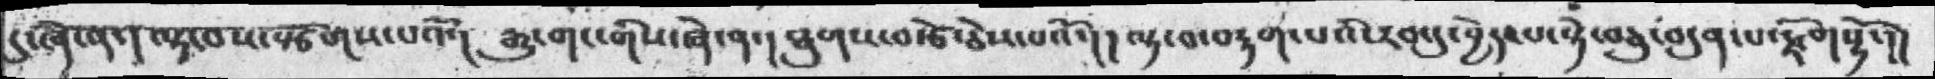དུ་ཞེ་ན་། ལྟ་བས་སྩོགས་པའོ་། རྒྱུ་གང་ཞེ་ན་། ཐུགས་བརྩེ་ཅེས་པའོ་། །ལྟ་བ་བརྟག་པའི་རབ་དུ་བྱེད་པ་སྟེ་བཅུ་བདུན་པ་རྫོགསྷོ་།།
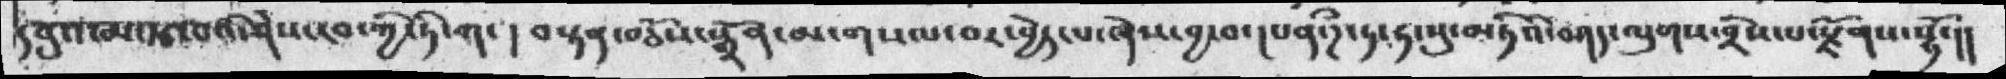དབུའ་མ་རྩ་བའི་ཤེས་རབ་ཀྱི་ཏི་ཀ་། བསྟན་བཅོས་སྒྲོན་མ་གསལ་བར་བྱེད་པ་ཞེས་བྱ་བ་།པན་ཌྀདཏ་ཧ་སུ་མཏིའི་བཤད་ལུགས་བྲིས་པ་རྫོགས་སྷོ་།།
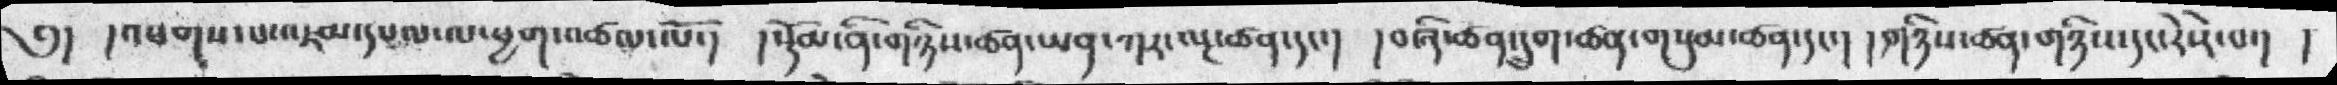༅།  །འཕགས་པ་འཇམ་དཔལ་ལ་ཕྱག་འཚལ་ལོ་།  ། སྡོམ་ནི་གཉིས་ཚན་ཡན་ཀར་ལྔ་ཚན་དང་།  ། བཞི་ཚན་དྲུག་ཚན་གསུམ་ཚན་དང་།  ། གཉིས་ཚན་གཉིས་དང་རེ་རེ་པ་། །
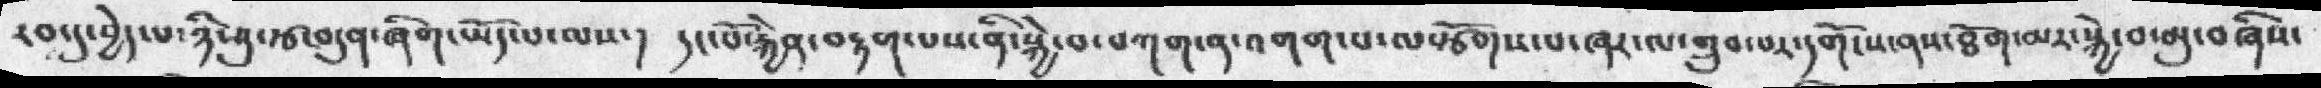རབ་དུ་བྱེད་པ་ཉི་ཤུ་རྩ་བདུན་ཞིག་ཡོད་པ་ལས་། དང་པོ་རྐྱེན་བརྟག་པས་ནི་སྐྱེ་བ་བཀག་ན་འགག་པ་ལསྩོགས་པ་ཞར་ལ་གྲུབ་པར་དགོངས་ནས་ཐོག་མར་སྐྱེ་བ་མུ་བཞིས་
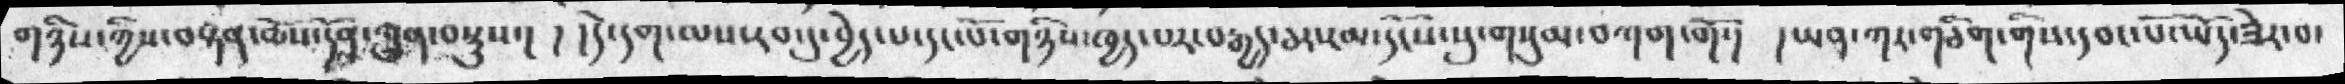གཉིས་ཀྱིས་བསྟན་ཆོས་དོན་ཀུན་བསྡུས་།  ། །དེ་དག་ལས་རབ་དུ་བྱེད་པ་དང་པོ་གཉིས་ཁྱད་པར་བརྒྱད་ཅར་རམ་དངོས་སུ་གསུམ་བཀག་གོ་།  །ཡན་ཀར་གཅིག་གིས་དབང་པོ་ཡོད་ཟེར་བ་
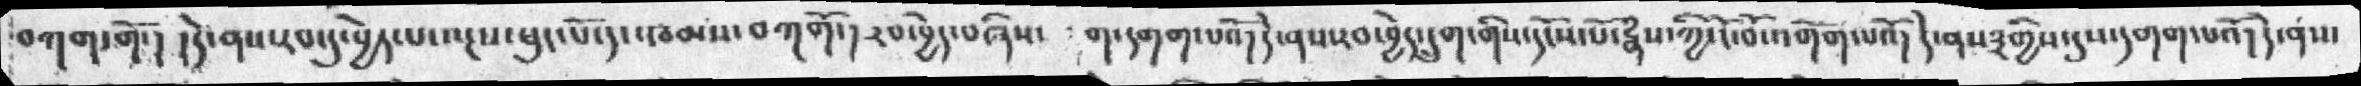བཀག་གོ་། །དེ་ནས་རབ་དུ་བྱེད་པ་ལྔས་ཕུང་པོ་དང་ཁམས་བཀགོ་། རབ་བྱེད་བཞིས་  ག་དགག་པའོ་། དེ་ནས་རབ་བྱེད་དྲུག་གིས་དངོས་པོ་རྣཾས་ཀྱི་ངོ་བོ་འགོག་པའོ། དེ་ནས༣གྱིས་དུས་དགག་པའོ་།དེ་ནས་
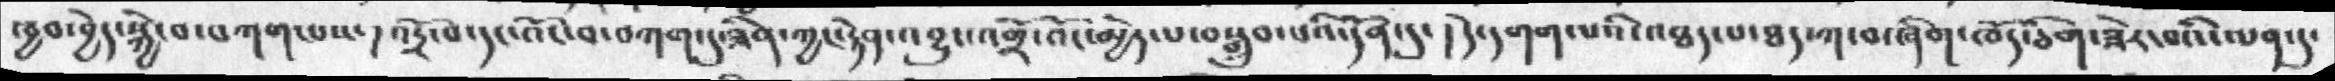ཁྱབ་བྱེད་སྐྱེ་བ་བཀག་པས་། འདྲོ་བ་དང་འོང་བ་བཀག་དུ་ཟིན་ཀྱང་རྟེན་འབྱུང་འགྲོ་འོང་མྱེད་པ་བསྒྲུབ་པའི་དོན་དུ་། དེ་དགག་པའི་འཐད་པ་ཐད་ཀ་བ་ཞིག་ཁོད་ཅིག་ཟེར་བའི་ལན་དུ་
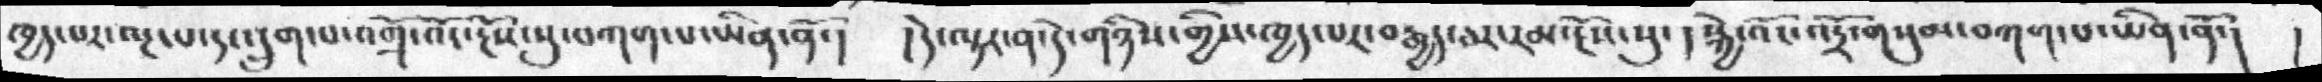ཁྱད་པར་ལྔ་པ་དང་དྲུག་པ་འགྲོ་འོང་རྔོས་སུ་བཀག་པ་ཡིན་ནོ་།  །དེ་ལྟར་ན་དེ་གཉིས་གྱིས་ཁྱད་པར་བརྒྱད་ཅར་རམ་རྔོས་སུ་། སྐྱེ་འོང་འདྲོ་གསུམ་བཀག་པ་ཡིན་ནོ་། །
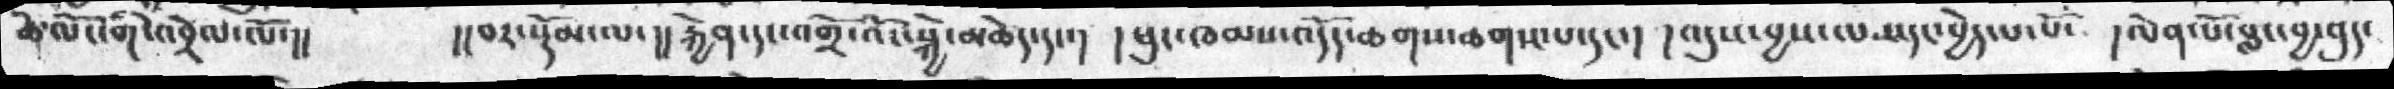ཚེ་ལོང་གི་འབྲེལ་ལོ་།།     །།བར་སྡོམ་ལ་།།རྐྱེན་དང་འགྲོ་འོང་སྐྱེ་མཆེད་དང་།  །ཕུང་ཁམས་འདོད་ཆགས་པ་དང་། །འདུས་བྱས་ལས་དང་བྱེད་པ་པོ་  །ལེན་པོ་བླང་བྱ་བུད་
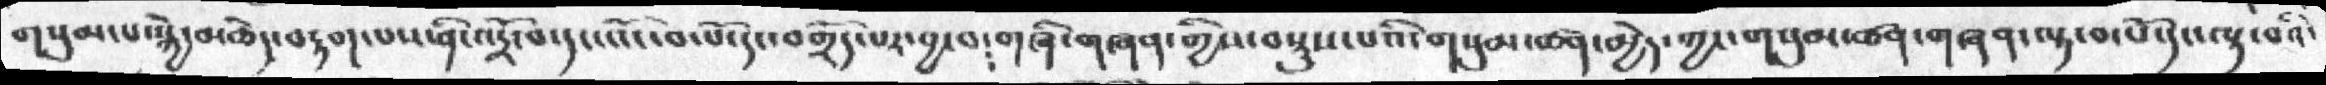གསུམ་པ་སྐྱེ་མཆེད་བརྟག་པས་ནི་འདྲོ་བ་དང་འོང་བ་པོ་དང་བགྲོད་པར་བྱ་བ་གཞི་གཞན་གྱིས་བསྡུས་པའི་གསུམ་ཚན་མྱེད་ཀྱང་གསུམ་ཚན་གཞན་ལྟ་བ་པོ་དང་ལྟ་བའི་
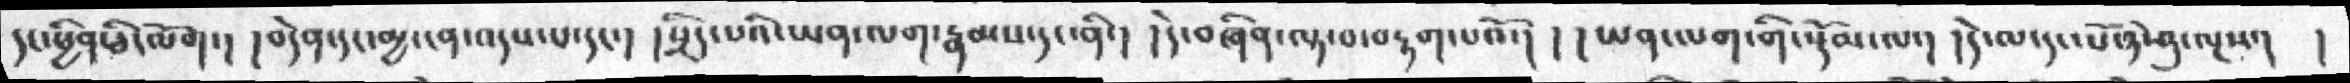དང་ཕྱིན་ཅི་ལོག་།  །བདེན་དང་མྱ་ངན་འདས་པ་དང་།  སྲིད་པའི་ཡན་ལག་རྣམས་དང་ནི་།  །དེ་བཞིན་ལྟ་བ་བརྟག་པའོ་།  ། ཡན་ལག་གི་སྡོམ་ལ་།  །དེ་ལ་དང་པོ་ཉི་ཤུ་ལྔས་།  །
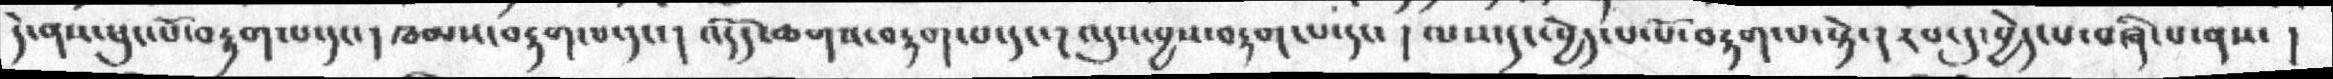དེ་ནས་ཕུང་པོ་བརྟག་པ་དང་།  ཁམས་བརྟག་པ་དང་།  འདོད་ཆགས་བརྟག་པ་དང་། འདུས་བྱས་བརྟག་པ་དང་ ། ལས་དང་བྱེད་པ་པོ་བརྟག་པ་སྟེ་། རབ་དུ་བྱེད་པ་བཞི་པ་ནས་ །
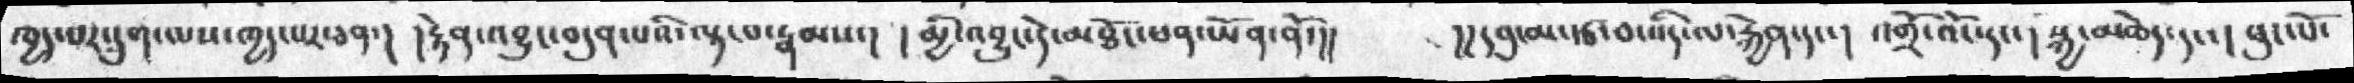ཁྱད་པར་དྲུག་ལས་ཁྱད་པར་ཅན་། །རྟེན་འབྱུང་བདུན་པའི་ལྟ་བ་རྣམས་། །མྱི་འབྱུང་དེ་མཐོང་ཕན་ཡོན་ནོ་།།    །།དབུ་མ་རྩ་བ་འདི་ལ་རྐྱེན་དང་། འགྲོ་འོང་དང་། སྐྱ་མཆེད་དང་། ཕུང་པོ་
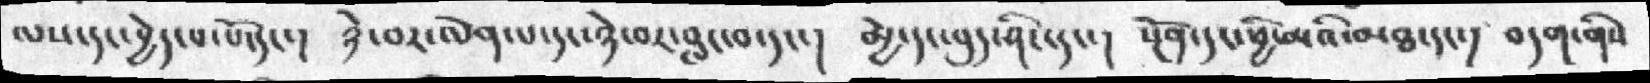ལས་དང་བྱེད་པ་པོ་དང་། ཉེ་བར་ལེན་པ་དང་ཉེ་བར་བླང་བ་དང་། མྱེ་དང་བུད་ཤིང་དང་། སྔོན་དང་ཕྱི་མའི་མཐ་དང་། བདག་གིས
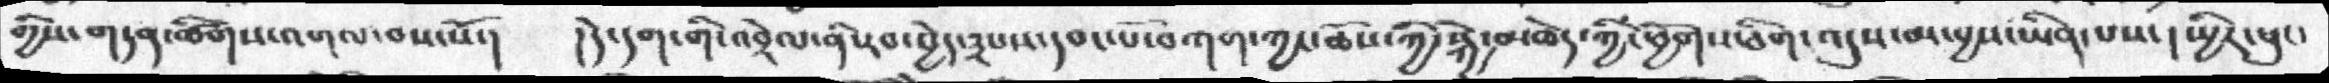གྱིས་གཏན་ཚིགས་འགལ་བས་སོ་། །དེ་དག་གི་འབྲེལ་ནི་རབ་བྱེད་༣པས་དབང་པོ་བཀག་ཀྱང་ཆོས་ཀྱི་སྐྱེ་མཆེད་ཀྱི་ཕྱོགས་ཅིག་འདུས་མ་བྱས་ཡིན་པས་། སྤྱིར་ཕུང་
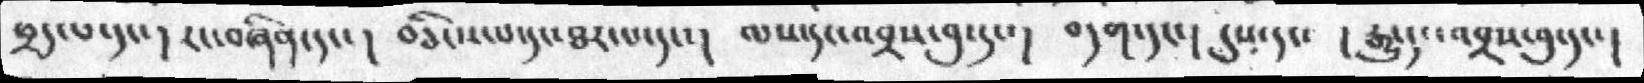ཕྲད་པ་དང་། རང་བཞིན་དང་། བཅིངས་པ་དང་ཐར་པ་དང་།  ལས་དང་འབྲས་བུ་དང་།  བདག་དང་། དུས་དང་  །རྒྱུ་དང་འབྲས་བུ་དང་།
